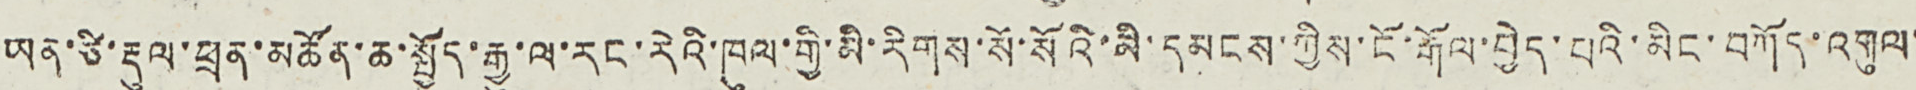ཡན་ཙི་རྡུལ་ཕྲན་མཚོན་ཆ་སྤྱོད་རྒྱུ་ལ་རང་རེའི་ཁུལ་གྱི་མི་རིགས་སོ་སོའི་མི་དམངས་ཀྱིས་ངོ་རྒོལ་བྱེད་པའི་མིང་བཀོད་འགུལ་
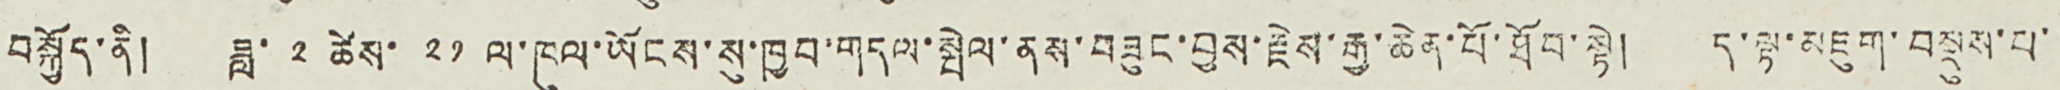བསྐྱོད་ནི། ཟླ་ ༢ ཚེས་ ༢༡ ལ་ཁུལ་ཡོངས་སུ་ཁྱབ་གདལ་སྤེལ་ནས་བཟུང་བྱས་རྗེས་རྒྱ་ཆེན་པོ་ཐོབ་སྟེ། ད་ལྟ་མཇུག་བསྡུས་པ་་
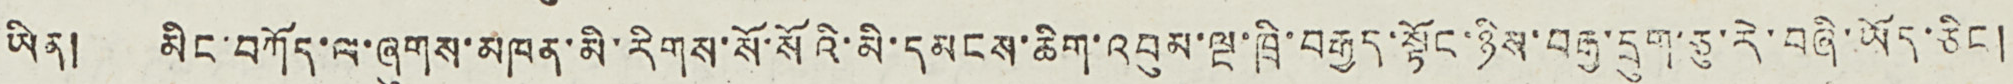ཡིན། མིང་བཀོད་ལ་ཞུགས་མཁན་མི་རིགས་སོ་སོའི་མི་དམངས་ཆིག་འབུས་ལྔ་ཁྲི་བརྒྱད་སྟོང་ཉིས་བརྒྱ་དྲུག་ཅུ་རེ་བཞི་ཡོད་ཅིང །
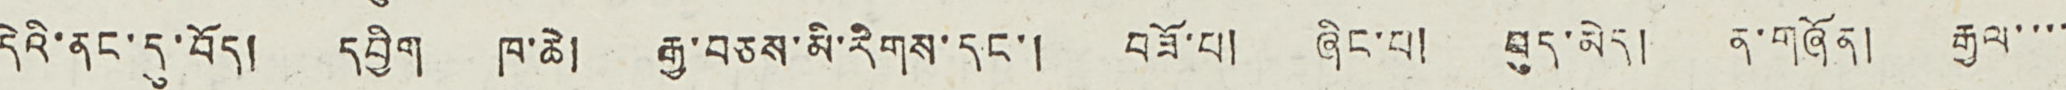དེའི་ནང་དུ་བོད། དབྱིག ཁ་ཆེ། རྒྱ་བཅས་མི་རིགས་དང་། བཟོ་པ། ཞིང་པ། བུད་མེད། ན་གཞོན། རྒྱལ་་་་
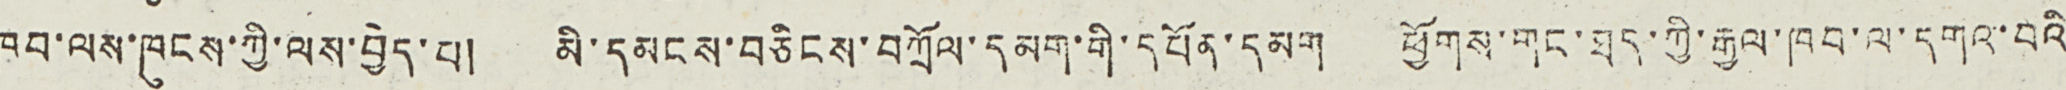ཁབ་ལས་ཁུངས་ཀྱི་ལས་བྱེད་པ། མི་དམངས་བཅིངས་བཀྲོལ་དམག་གི་དཔོན་དམག ཕྱོགས་གང་ཐད་ཀྱི་རྒྱལ་ཁབ་ལ་དགའ་བའི
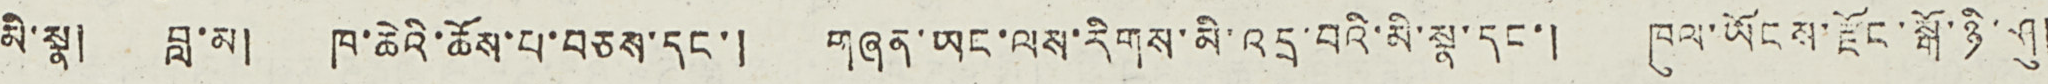མི་སྣ། བླ་མ། ཁ་ཆེའི་ཆོས་པ་བཅས་དང་། གཞན་ཡང་ལས་རིགས་མི་འདྲ་བའི་མི་སྣ་དང་། ཁུལ་ཡོངས་རྫོང་སྒོ་ཉི་ཤུ།
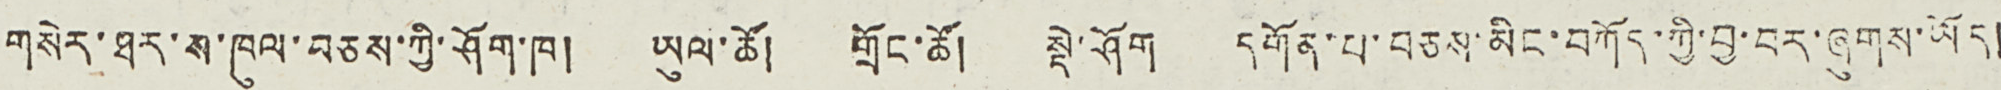གསེར་ཐར་ས་ཁུལ་བཅས་ཀྱི་ཤོག་ཁ། ཡུལ་ཚོ། གྲོང་ཚོ། སྡེ་ཤོག དགོན་པ་བཅས་མིང་བཀོད་ཀྱི་བྱ་བར་ཞུགས་ཡོད།
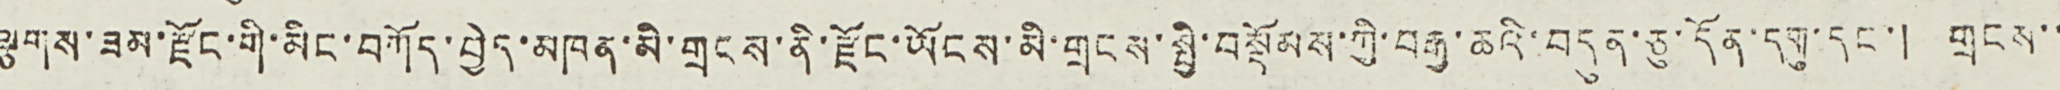ལྕགས་ཟམ་རྫོང་གི་མིང་བཀོད་བྱེད་མཁན་མི་གྲངས་ནི་རྫོང་ཡོངས་མི་གྲངས་སྤྱི་བསྡོམས་ཀྱི་བརྒྱ་ཆའི་བདུན་ཅུ་དོན་དགུ་དང་། གྲངས་་
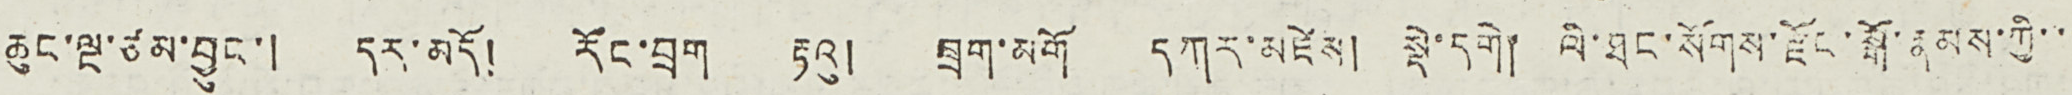ཆུང་ལྔ་ཙམ་བྱུང་། དར་མདོ། རོང་བྲག རྟའུ། བྲག་མགོ དཀར་མཛེས། སྡེ་དགེ། ལི་ཐང་སོགས་རྫོང་སྒོ་རྣམས་ཀྱི་་་
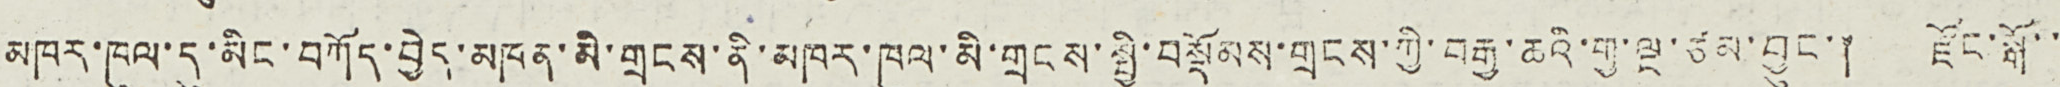མཁར་ཁུལ་དུ་མིང་བཀོད་བྱེད་མཁན་མི་གྲངས་ནི་མཁར་ཁུལ་མི་གྲངས་སྤྱི་བསྡོམས་གྲངས་ཀྱི་བརྒྱ་ཆའི་གྱ་ལྔ་ཙམ་བྱུང་། རྫོང་སྒོ་་་
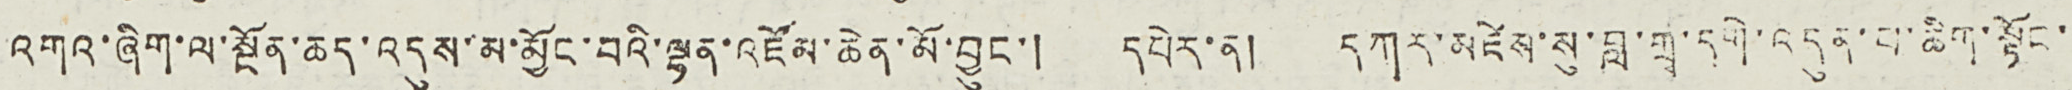འགའ་ཞིག་ལ་སྔོན་ཆད་འདུས་མ་མྱོང་བའི་ལྷན་འཛོམ་ཆེན་མོ་བྱུང་། དཔེར་ན། དཀར་མཛེས་སུ་བླ་གྲྭ་དགེ་འདུན་པ་ཆིག་སྟོང་
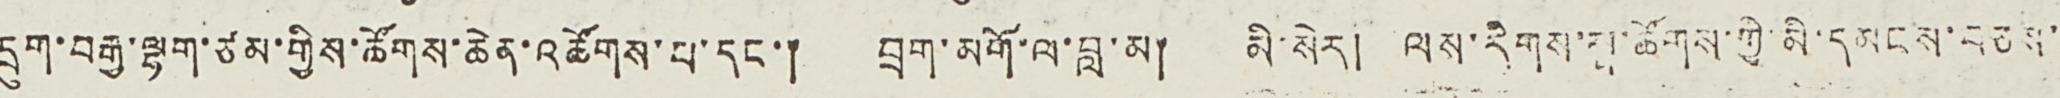དྲུག་བརྒྱ་ལྷག་ཙམ་གྱིས་ཚོགས་ཆེན་འཚོགས་པ་དང་། བྲག་མགོ་ལ་བླ་མ། མི་སེར། ལས་རིགས་སྣ་ཚོགས་ཀྱི་མི་དམངས་བཅས་་
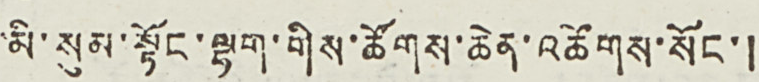་མི་སུམ་སྟོང་ལྷག་གིས་ཚོགས་ཆེན་འཚོགས་སོང་།
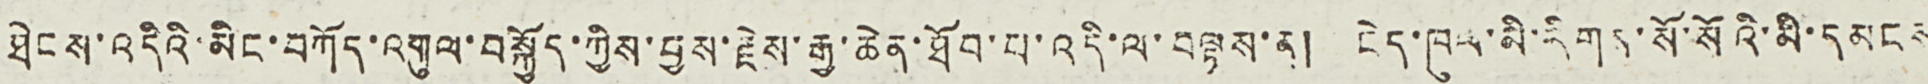ཐེངས་འདིའི་མིང་བཀོད་འགུལ་བསྐྱོད་ཀྱིས་བྱས་རྗེས་རྒྱ་ཆེན་ཐོབ་པ་འདི་ལ་བལྟས་ན། ངེད་ཁུལ་མི་རིགས་སོ་སོའི་མི་དམངས
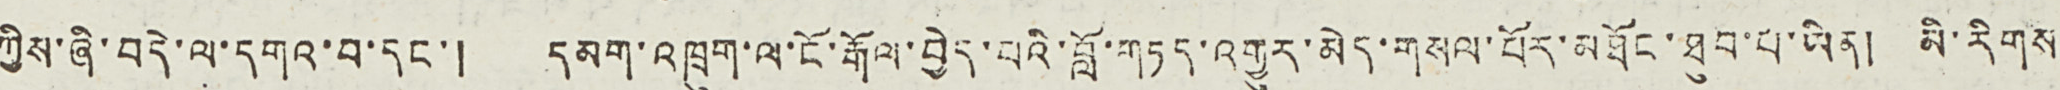ཀྱིས་ཞི་བདེ་ལ་དགའ་བ་དང་། དམག་འཁྲུག་ལ་ངོ་རྒོལ་བྱེད་པའི་བློ་གཏད་འགྱུར་མེད་གསལ་པོར་མཐོང་ཐུབ་པ་ཡིན། མི་རིགས་
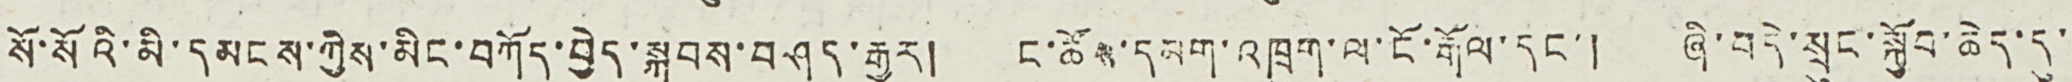སོ་སོའི་མི་དམངས་ཀྱིས་མིང་བཀོད་བྱེད་སྐབས་བཤད་རྒྱུར། ང་ཚོས་དམག་འཁྲུག་ལ་ངོ་རྒོལ་དང་། ཞི་བདེ་སྲུང་སྐྱོབ་ཆེད་དུ་་
